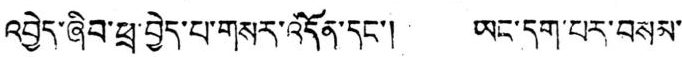འབྱེད་ཞིབ་ཕྲ་བྱེད་པ་གསར་འདོན་དང་། ཡང་དག་པར་བསམ་
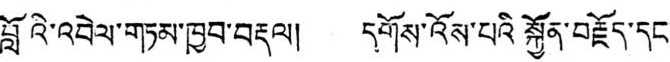བློའི་འབེལ་གཏམ་ཁྱབ་བརྡལ། དགོས་འོས་པའི་སྐྱོན་བརྗོད་དང་
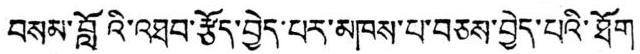བསམ་བློའི་འཐབ་རྩོད་བྱེད་པར་མཁས་པ་བཅས་བྱེད་པའི་ཐོག
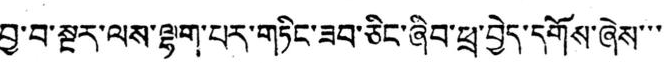བྱ་བ་སྔར་ལས་ལྷག་པར་གཏིང་ཟབ་ཅིང་ཞིབ་ཕྲ་བྱེད་དགོས་ཞེས་་་་
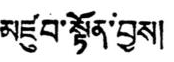མཛུབ་སྟོན་བྱས།
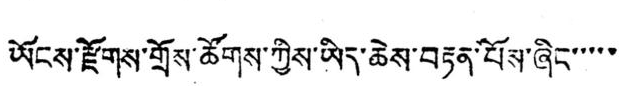ཡོངས་རྫོགས་གྲོས་ཚོགས་ཀྱིས་ཡིད་ཆེས་བརྟན་པོས་ཞིང་་་་་
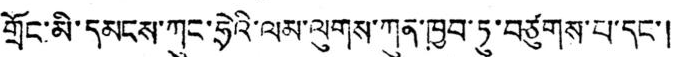གྲོང་མི་དམངས་ཀུང་ཧྲེའི་ལམ་ལུགས་ཀུན་ཁྱབ་ཏུ་བཙུགས་པ་དང་།
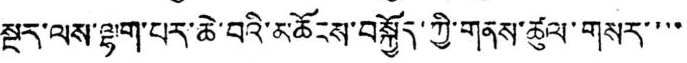སྔར་ལས་ལྷག་པར་ཆེ་བའི་མཆོངས་བསྐྱོད་ཀྱི་གནས་ཚུལ་གསར་་་་
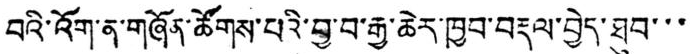བའི་འོག་ན་གཞོན་ཚོགས་པའི་བྱ་བ་རྒྱ་ཆེར་ཁྱབ་བརྡལ་བྱེད་ཐུབ་་་
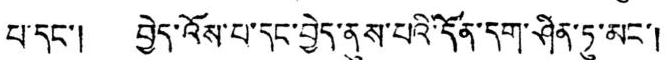པ་དང་། བྱེད་འོས་པ་དང་བྱེད་ནུས་པའི་དོན་དག་ཤིན་ཏུ་མང་།
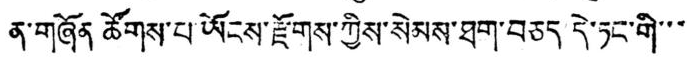ན་གཞོན ཚོགས་པ་ཡོངས་རྫོགས་ཀྱིས་སེམས་ཐག་བཅད་དེ་ཏང་གི་་་
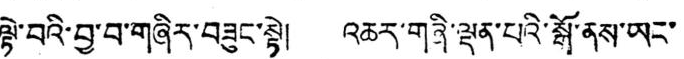ལྟེ་བའི་བྱ་བ་གཞིར་བཟུང་སྟེ། འཆར་གཞི་ལྡན་པའི་སྒོ་ནས་ཡང་
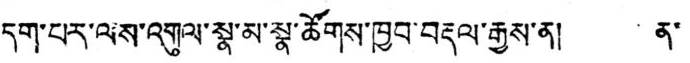དག་པར་ལས་འགུལ་སྣ་མ་སྣ་ཚོགས་ཁྱབ་བརྡལ་རྒྱས་ན། ན་
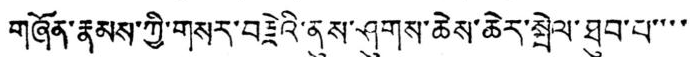གཞོན་རྣམས་ཀྱི་གསར་བརྗེའི་ནུས་ཤུགས་ཆེས་ཆེར་སྤེལ་ཐུབ་པ་་་་
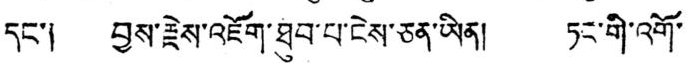དང་། བྱས་རྗེས་འཇོག་ཐུབ་པ་ངེས་ཅན་ཡིན། ཏང་གི་འགོ་
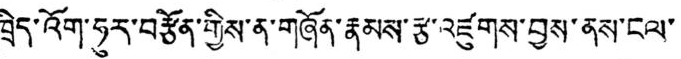ཁྲིད་འོག་ཧུར་བརྩོན་གྱིས་ན་གཞོན་རྣམས་རྩ་འཛུགས་བྱས་ནས་ངལ་
